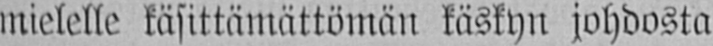mielelle käsittämättömän käskyn johdosta
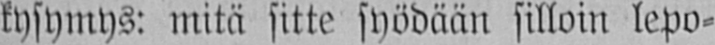kysymys: mitä sitte syödään silloin lepo-
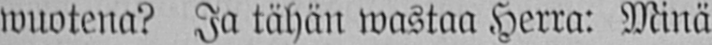wuotena? Ja tähän wastaa Herra: Minä
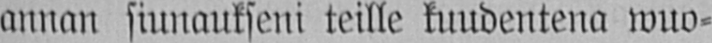annan siunaukseni teille kuudentena wuo-
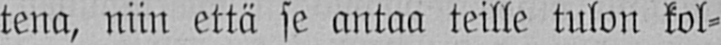tena, niin että se antaa teille tulon kol-
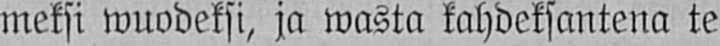meksi wuodeksi, ja wasta kahdeksantena te
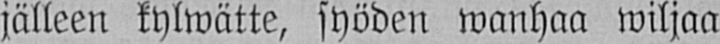jälleen kylwätte, syöden wanhaa wiljaa
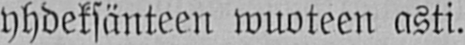yhdeksänteen wuoteen asti.
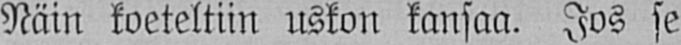Näin koeteltiin uskon kansaa. Jos se
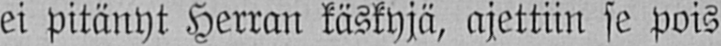ei pitänyt Herran käskyjä, ajettiin se pois
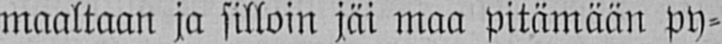maaltaan ja silloin jäi maa pitämään py-
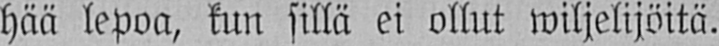hää lepoa, kun sillä ei ollut wiljelijöitä.
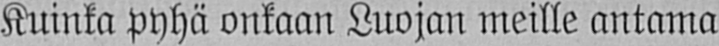Kuinka pyhä onkaan Luojan meille antama
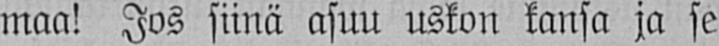maa! Jos siinä asuu uskon kansa ja se
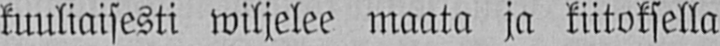kuuliaisesti wiljelee maata ja kiitoksella
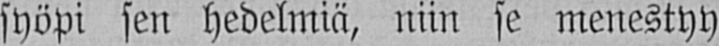syöpi sen hedelmiä, niin se menestyy
